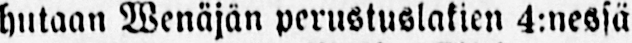hutaan Wenäjän perustuslakien 4:nessä
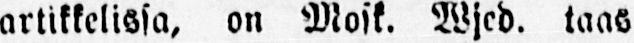artikkelissa, on Mosk. Wjed. taas
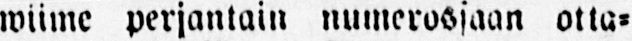wiime perjantain numerossaan otta-
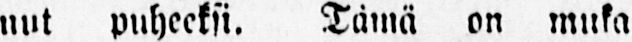nut puheeksi. Tämä on muka
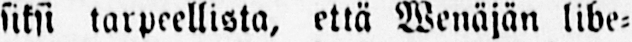siksi tarpeellista, että Wenäjän libe-
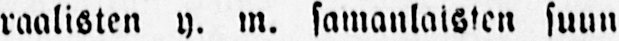raalisten y. m. samanlaisten suun-
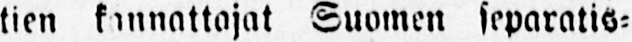tien kannattajat Suomen separatis-
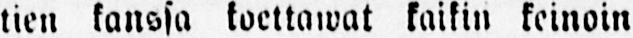tien kanssa koettawat kaikin keinoin
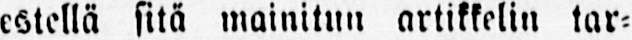estellä sitä mainitun artikkelin tar-
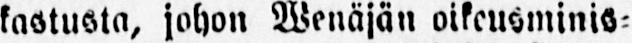kastusta, johon Wenäjän oikeusminis-
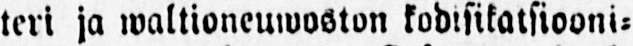teri ja waltioneuwoston kodisikatsiooni-
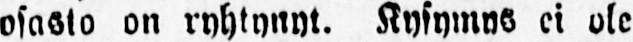osasto on ryhtynyt. Kysymys ei ole
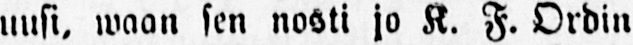uusi, waan sen nosti jo K. F. Ordin
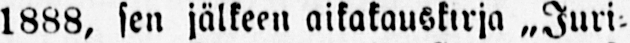1888, sen jälkeen aikakauskirja „Juri-
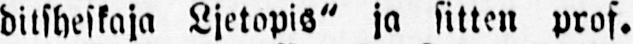ditsheskaja Ljetopis" ja sitten prof.
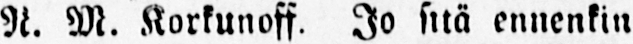N. M. Korkunoff. Jo sitä ennenkin
